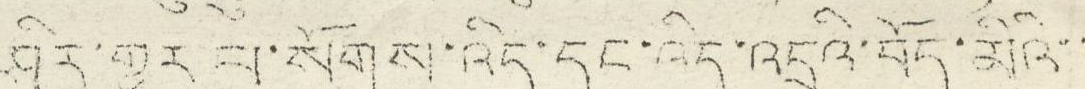ཤིར་གྱུར་པ་སོགས་འདི་དང་འདི་འདྲའི་བོད་མིའི་་
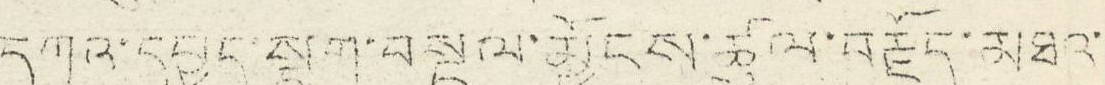དཀའ་དཔྱད་སྡུག་བསྔལ་མྱོངས་ཚུལ་བརྗོད་མཐའ་
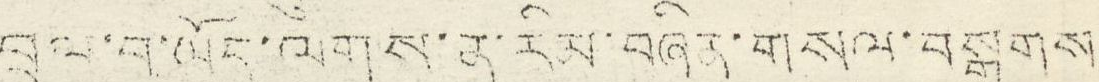བྲལ་བ་ཡོད་ལགས་ན་རིམ་བཞིན་གསལ་བསྒྲགས
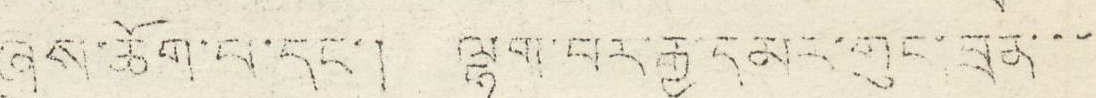ཞུས་ཆོག་པ་དང་། ལྷག་པར་རྒྱ་དམར་གུང་བྲན་་
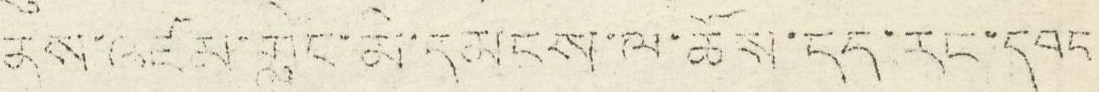ནས་འཛམ་གླིང་མི་དམངས་ལ་ཆོས་དང་རང་དབང
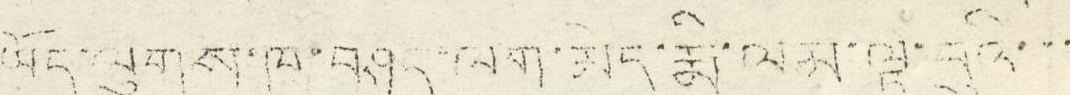ཡོད་ལུགས་ཁ་བཤད་ལག་མེད་རྨི་ལམ་ལྟ་བུའི་་་
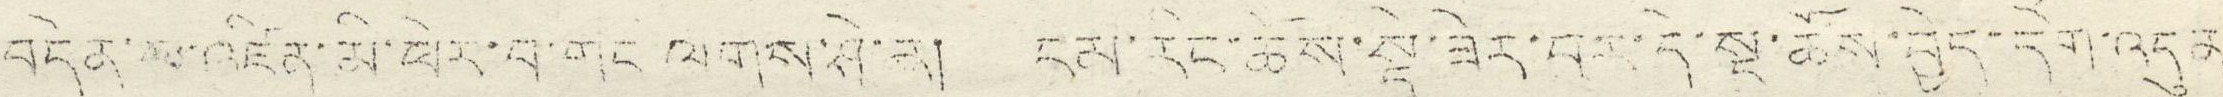བདེན་ཆ་འཛིན་མི་ཕེར་བ་གང་ལགས་ཤེ་ན། ངམ་རིང་ཆོས་སྡེ་ཟེར་བར་དེ་སྔ་ཆོས་བྱེད་དགེ་འདུན
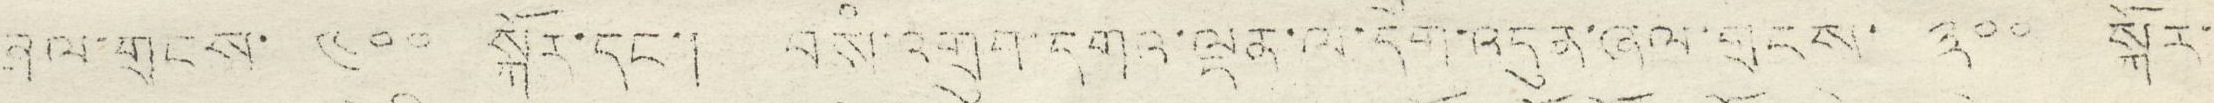ཞལ་གྲངས་ ༤༠༠ སྐོར་དང་། བསཾ་འགྲུབ་དགའ་ལྡན་ལ་དགེ་འདུན་ཞལ་གྲངས་ ༣༠༠ སྐོར་
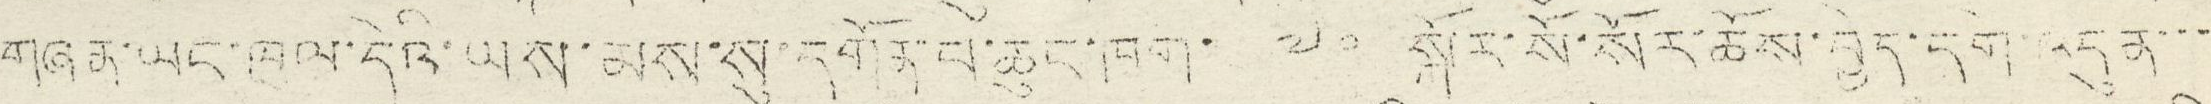གཞན་ཡང་ཁུལ་དེའི་ཡས་མས་སུ་དགོན་པ་ཆུང་ཁག་ ༧༠ སྐོར་སོ་སོར་ཆོས་བྱེད་དགེ་འདུན་་་
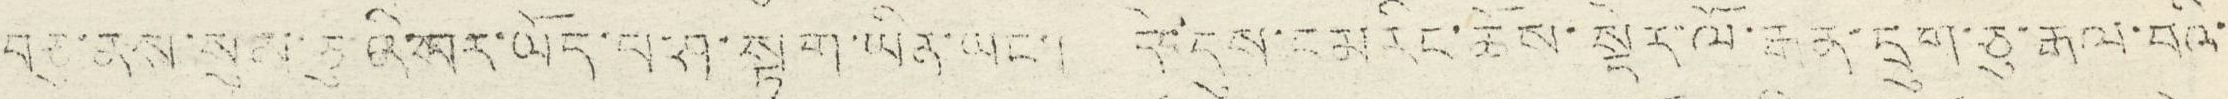བཅུ་ནས་སུམ་བཅུའི་བར་ཡོད་པ་ཤ་སྟག་ཡིན་ཡང་། དེ་དུས་ངམ་རིང་ཆོས་སྡེར་ལོ་རྒན་དྲུག་ཅུ་རྒལ་བའི་
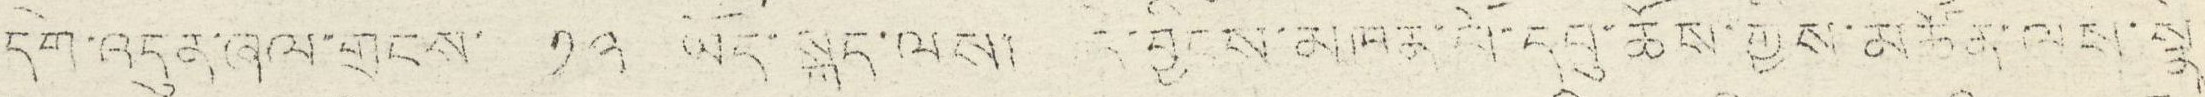དགེ་འདུན་ཞལ་གྲངས་ ༡༢ ཡོད་སྐད་ལས། དེ་བྱིངས་མཁན་པོ་དབུ་ཆོས་ཀྱིས་མཚོན་ལས་སྣེ་
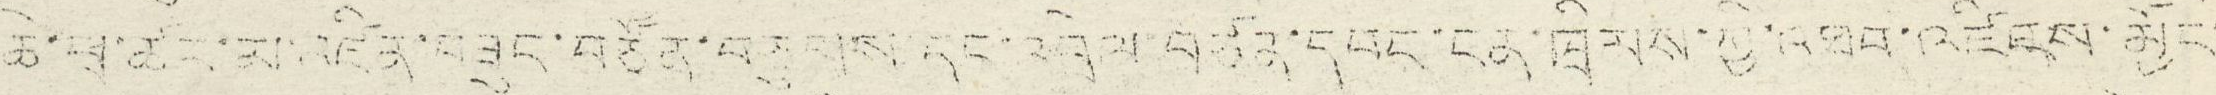ཆེ་ཕྲ་ཚང་མ་འཛིན་བཟུང་བཙོན་བཅུགས་དང་འབྲེལ་བཙན་དབང་ངན་ཁྲིམས་ཀྱི་འཐབ་འཛིངས་མྱོང་
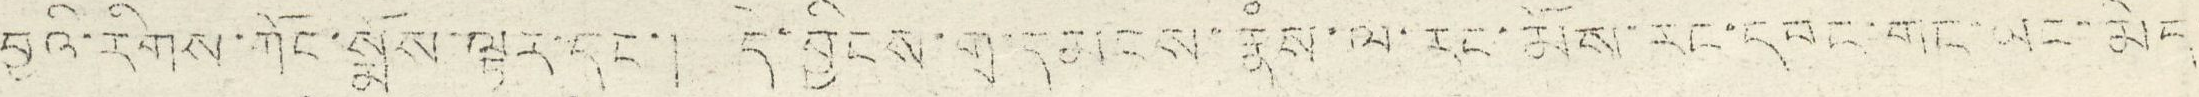བྱའི་རིགས་གོང་སྨོས་ལྟར་དང་། དེ་བྱིངས་གྲྭ་དམངས་རྣཾས་ལ་རང་མོས་རང་དབང་དང་ཡང་མེད་
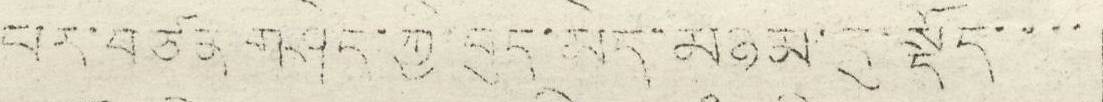པར་བཙན་གཤེད་ཀྱི་བུད་མེད་མཉམ་དུ་སྡོད་་་་
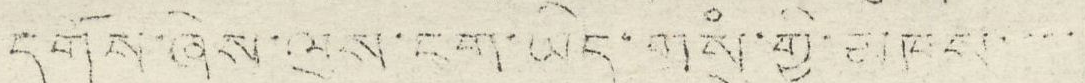དགོས་ཞེས་ལུས་ངག་ཡིད་གསུཾ་གྱི་མཁས་་་་
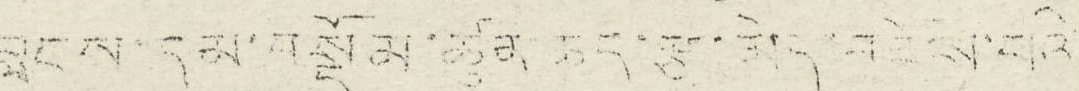བླངས་དམ་བསྡོམ་ཚུན་ཆད་རྩ་མེད་བཟོས་པའི་
